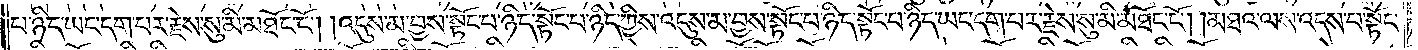པ་ཉིད་ཡང་དག་པར་རྗེས་སུ་མི་མཐོང་ངོ༌། །འདུས་མ་བྱས་སྟོང་པ་ཉིད་སྟོང་པ་ཉིད་ཀྱིས་འདུས་མ་བྱས་སྟོང་པ་ཉིད་སྟོང་པ་ཉིད་ཡང་དག་པར་རྗེས་སུ་མི་མཐོང་ངོ༌། །མཐའ་ལས་འདས་པ་སྟོང་
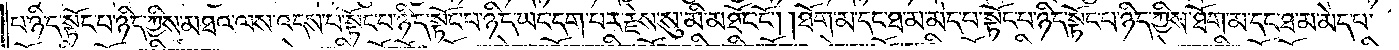པ་ཉིད་སྟོང་པ་ཉིད་ཀྱིས་མཐའ་ལས་འདས་པ་སྟོང་པ་ཉིད་སྟོང་པ་ཉིད་ཡང་དག་པར་རྗེས་སུ་མི་མཐོང་ངོ༌། །ཐོག་མ་དང་ཐ་མ་མེད་པ་སྟོང་པ་ཉིད་སྟོང་པ་ཉིད་ཀྱིས་ཐོག་མ་དང་ཐ་མ་མེད་པ་
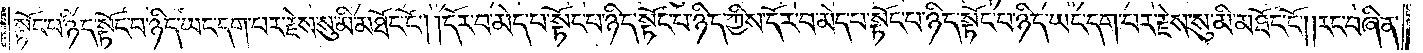སྟོང་པ་ཉིད་སྟོང་པ་ཉིད་ཡང་དག་པར་རྗེས་སུ་མི་མཐོང་ངོ༌། །དོར་བ་མེད་པ་སྟོང་པ་ཉིད་སྟོང་པ་ཉིད་ཀྱིས་དོར་བ་མེད་པ་སྟོང་པ་ཉིད་སྟོང་པ་ཉིད་ཡང་དག་པར་རྗེས་སུ་མི་མཐོང་ངོ༌། །རང་བཞིན་
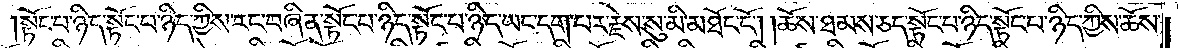སྟོང་པ་ཉིད་སྟོང་པ་ཉིད་ཀྱིས་རང་བཞིན་སྟོང་པ་ཉིད་སྟོང་པ་ཉིད་ཡང་དག་པར་རྗེས་སུ་མི་མཐོང་ངོ༌། །ཆོས་ཐམས་ཅད་སྟོང་པ་ཉིད་སྟོང་པ་ཉིད་ཀྱིས་ཆོས་
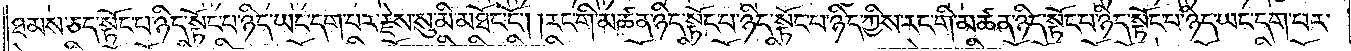ཐམས་ཅད་སྟོང་པ་ཉིད་སྟོང་པ་ཉིད་ཡང་དག་པར་རྗེས་སུ་མི་མཐོང་ངོ༌། །རང་གི་མཚན་ཉིད་སྟོང་པ་ཉིད་སྟོང་པ་ཉིད་ཀྱིས་རང་གི་མཚན་ཉིད་སྟོང་པ་ཉིད་སྟོང་པ་ཉིད་ཡང་དག་པར་
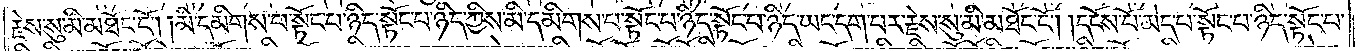རྗེས་སུ་མི་མཐོང་ངོ༌། །མི་དམིགས་པ་སྟོང་པ་ཉིད་སྟོང་པ་ཉིད་ཀྱིས་མི་དམིགས་པ་སྟོང་པ་ཉིད་སྟོང་པ་ཉིད་ཡང་དག་པར་རྗེས་སུ་མི་མཐོང་ངོ༌། །དངོས་པོ་མེད་པ་སྟོང་པ་ཉིད་སྟོང་པ་
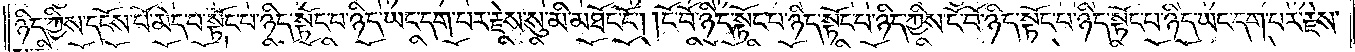ཉིད་ཀྱིས་དངོས་པོ་མེད་པ་སྟོང་པ་ཉིད་སྟོང་པ་ཉིད་ཡང་དག་པར་རྗེས་སུ་མི་མཐོང་ངོ༌། །ངོ་བོ་ཉིད་སྟོང་པ་ཉིད་སྟོང་པ་ཉིད་ཀྱིས་ངོ་བོ་ཉིད་སྟོང་པ་ཉིད་སྟོང་པ་ཉིད་ཡང་དག་པར་རྗེས་
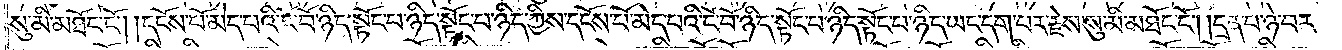སུ་མི་མཐོང་ངོ༌། །དངོས་པོ་མེད་པའི་ངོ་བོ་ཉིད་སྟོང་པ་ཉིད་སྟོང་པ་ཉིད་ཀྱིས་དངོས་པོ་མེད་པའི་ངོ་བོ་ཉིད་སྟོང་པ་ཉིད་སྟོང་པ་ཉིད་ཡང་དག་པར་རྗེས་སུ་མི་མཐོང་ངོ༌། །དྲན་པ་ཉེ་བར་
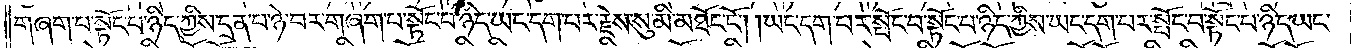གཞག་པ་སྟོང་པ་ཉིད་ཀྱིས་དྲན་པ་ཉེ་བར་བཞག་པ་སྟོང་པ་ཉིད་ཡང་དག་པར་རྗེས་སུ་མི་མཐོང་ངོ༌། །ཡང་དག་པར་སྤོང་བ་སྟོང་པ་ཉིད་ཀྱིས་ཡང་དག་པར་སྤོང་བ་སྟོང་པ་ཉིད་ཡང་
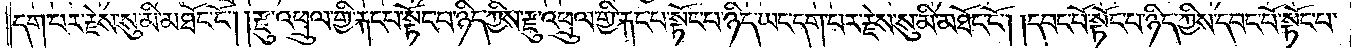དག་པར་རྗེས་སུ་མི་མཐོང་ངོ༌། །རྫུ་འཕྲུལ་གྱི་རྐང་པ་སྟོང་པ་ཉིད་ཀྱིས་རྫུ་འཕྲུལ་གྱི་རྐང་པ་སྟོང་པ་ཉིད་ཡང་དག་པར་རྗེས་སུ་མི་མཐོང་ངོ༌། །དབང་པོ་སྟོང་པ་ཉིད་ཀྱིས་དབང་པོ་སྟོང་པ་
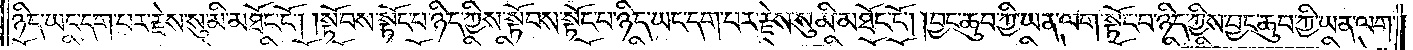ཉིད་ཡང་དག་པར་རྗེས་སུ་མི་མཐོང་ངོ༌། །སྟོབས་སྟོང་པ་ཉིད་ཀྱིས་སྟོབས་སྟོང་པ་ཉིད་ཡང་དག་པར་རྗེས་སུ་མི་མཐོང་ངོ༌། །བྱང་ཆུབ་ཀྱི་ཡན་ལག་སྟོང་པ་ཉིད་ཀྱིས་བྱང་ཆུབ་ཀྱི་ཡན་ལག་
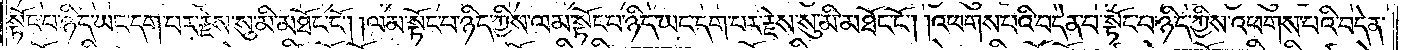སྟོང་པ་ཉིད་ཡང་དག་པར་རྗེས་སུ་མི་མཐོང་ངོ༌༎ ལམ་སྟོང་པ་ཉིད་ཀྱིས་ལམ་སྟོང་པ་ཉིད་ཡང་དག་པར་རྗེས་སུ་མི་མཐོང་ངོ༌། །འཕགས་པའི་བདེན་པ་སྟོང་པ་ཉིད་ཀྱིས་འཕགས་པའི་བདེན་
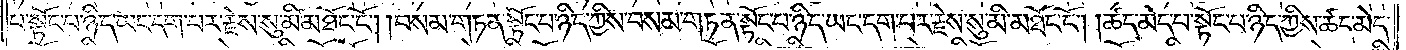པ་སྟོང་པ་ཉིད་ཡང་དག་པར་རྗེས་སུ་མི་མཐོང་ངོ༌། །བསམ་གཏན་སྟོང་པ་ཉིད་ཀྱིས་བསམ་གཏན་སྟོང་པ་ཉིད་ཡང་དག་པར་རྗེས་སུ་མི་མཐོང་ངོ༌། །ཚད་མེད་པ་སྟོང་པ་ཉིད་ཀྱིས་ཚད་མེད་
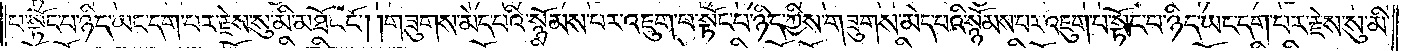པ་སྟོང་པ་ཉིད་ཡང་དག་པར་རྗེས་སུ་མི་མཐོང་ངོ༌། །གཟུགས་མེད་པའི་སྙོམས་པར་འཇུག་པ་སྟོང་པ་ཉིད་ཀྱིས་གཟུགས་མེད་པའི་སྙོམས་པར་འཇུག་པ་སྟོང་པ་ཉིད་ཡང་དག་པར་རྗེས་སུ་མི་
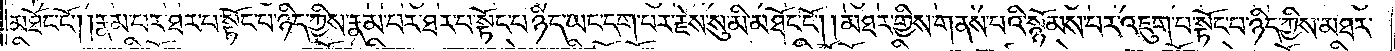མཐོང་ངོ༌། །རྣམ་པར་ཐར་པ་སྟོང་པ་ཉིད་ཀྱིས་རྣམ་པར་ཐར་པ་སྟོང་པ་ཉིད་ཡང་དག་པར་རྗེས་སུ་མི་མཐོང་ངོ༌། །མཐར་གྱིས་གནས་པའི་སྙོམས་པར་འཇུག་པ་སྟོང་པ་ཉིད་ཀྱིས་མཐར་
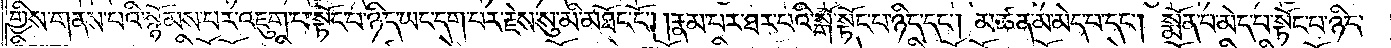གྱིས་གནས་པའི་སྙོམས་པར་འཇུག་པ་སྟོང་པ་ཉིད་ཡང་དག་པར་རྗེས་སུ་མི་མཐོང་ངོ༌། །རྣམ་པར་ཐར་པའི་སྒོ་སྟོང་པ་ཉིད་དང༌། མཚན་མ་མེད་པ་དང༌། སྨོན་པ་མེད་པ་སྟོང་པ་ཉིད་
